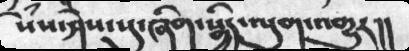སེཾས་ཤེས་སུ་ཞིག་སྒྱིད་ལུགས་འགྱུར།།
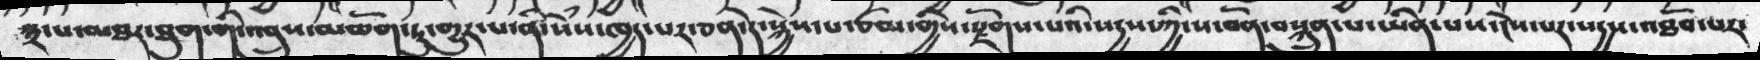༣་པ་མཐར་ཐུག་གི་འབྲུས་མཆོག་ཏུ་གྱུར་པ་ནི་སེཾས་ཁྱད་པར་ཅན་དེ་སྐྱེད་པ་ཙམ་གྱིས་རྫོགས་པའི་སདྱས་ཀྱི་ས་བོན་ནསྐྲུན་པ་ཡིན་པས་ངེས་པར་སདྱས་འཐོབ་པར་
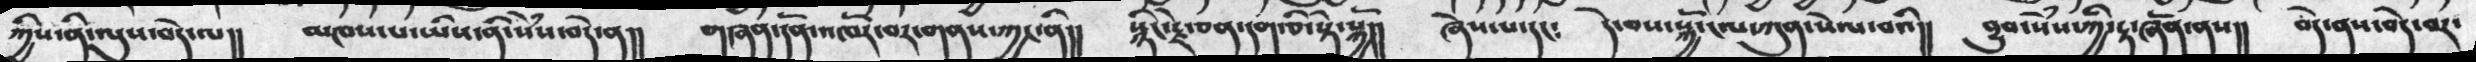ཀྱིས་ནི་ལུས་བདེ་ལ།།  མཁས་པ་ཡིས་ནི་སེཾས་བདེ་ན།།  གཞན་དོན་འཁོར་བར་གནས་ཀྱང་ནི།།   སྙིང་རྗེ་ཅན་དག་ཅི་སྟེ་སྐྱོ།།  ཞེས་པ་དང༴  དེ་བས་སྐྱོ་ངལ་ཀུན་སེལ་བའི།།  བདེ་ནས་བདེ་བར་
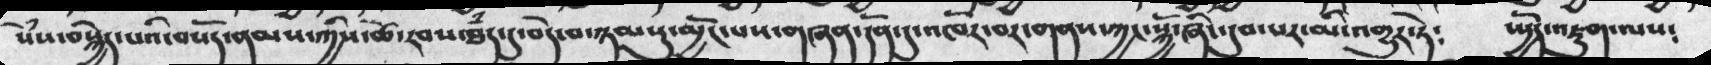སེཾས་བསྐྱེད་པའི་བསོད་ནམས་ཀྱིས་ཚེ་རབས་ཐཾད་དུ་བདེ་བ་ཉམསུ་མྱོང་པས་གཞན་དོན་དུ་འཁོར་བར་གནས་ཀྱང་སྐྱོ་ཞིང་དུབ་པར་མི་འགྱུར་ཏེ༴  སྤྱོད་འཇུག་ལས༴
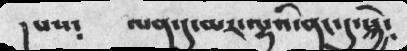།  པས༴  ལན་དུ་མར་ལྷའི་ནང་དུ་སྐྱེ༴
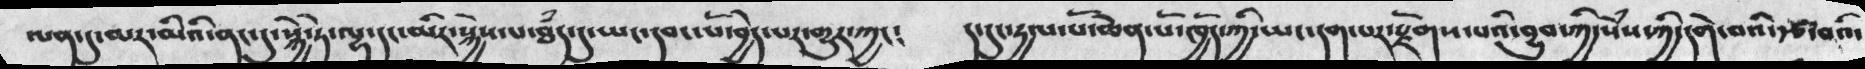ལན་དུ་མར་མིའི་ནང་དུ་སྐྱེ་ཏེ་ལྷ་དང་མིར་སྐྱེས་པ་ཐཾད་དུ་ཡང་དབང་པོ་བྱེད་པར་གྱུར་ཀྱང༴  ད་དུང་དྱལ་པོ་ཆེན་པོ་ཁྱོད་ཀྱི་ཡང་དག་པར་རྫོགས་པའི་བྱུབ་ཀྱི་སེཾས་ཀྱི་དགེ་བའི་རྩ་བའི་
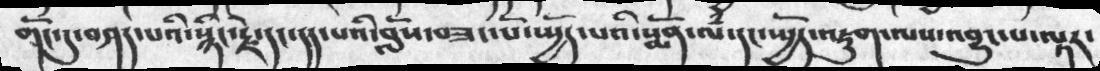གོང་དུ་བཤས་པའི་སྙིང་རྗེ་དང་དད་པའི་བློས་བཟང་པོ་སྤྱོད་པའི་སྨོན་ལཾ་དང་སྤྱོད་འཇུག་ལས་འབྱུང་པ་ལྟར་
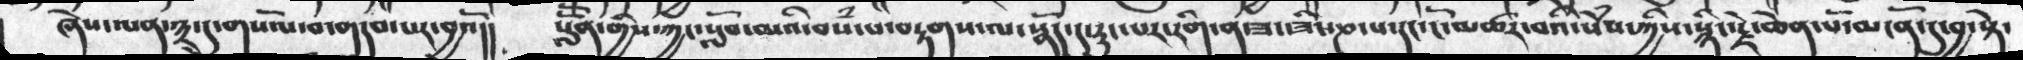ཞེས་ལན་༣་དུ་གསོལ་བ་གདབ་པར་བྱའོ།།  སློོན་གྱིས་ཀྱང་སློབ་མའི་བསཾ་པ་བརྟགས་ལ་སྣོད་དུ་རུང་པར་རིག་ན་ཟང་ཟིང་ཎ་པ་དང་ངོ་མཚར་བའི་སེཾས་ཀྱིས་སྙིང་རྗེ་ཆེན་པོ་མངོན་དུ་བྱ་སྟེ་
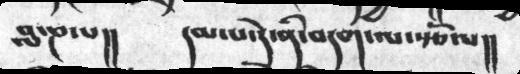བླ་ཎ་པ།།  དམ་པ་དེ་ནི་བདག་ལ་རྩོལ།།
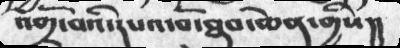འགྲོ་བའི་དཔའ་བོ་ཐུབ་ཆེན་གྱིས།།
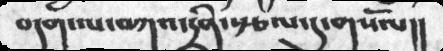བདག་ལ་བཀའ་དྲིན་སྩལ་དུ་གསོལ།།
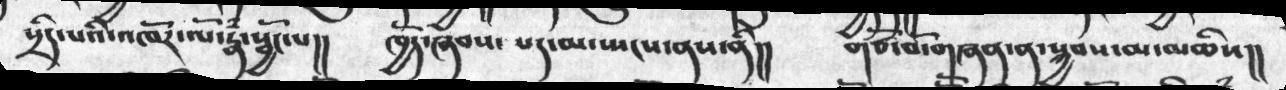སྲིད་པའི་འཁོར་ལོ་རྣཾ་སྦྱོང་པ།།  ཁྱོད་ཞབས་པད་མ་སྤངས་ནས་ནི།།  གཙོ་བོ་གཞན་ན་སྐྱབས་མ་མཆིས།།
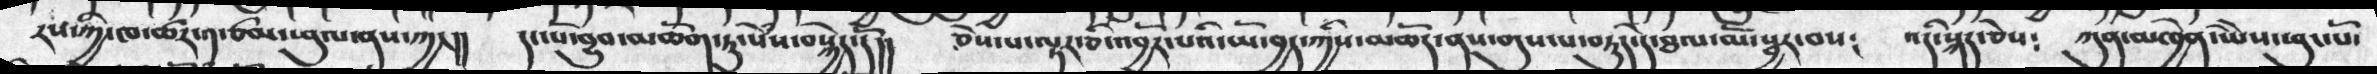རས་ཀྱི་ཁ་ཚར་༡་ཙམ་ཕུལ་ནས་ཀྱང།།  དང་པོ་བྱུབ་མཆོག་ཏུ་སེཾས་བསྐྱེད་དོ།།  ཅེས་པ་ལྟར་ཅི་འབྱོར་པའི་ཡོ་བྱད་ཀྱིས་མཆོད་ནས་གུས་པ་བཏུད་དེ་ཐལ་མོ་སྦྱར་བས༴  འདི་སྐད་ཅེས༴  ཀུན་མཁྱེན་ཡེེས་ཕུང་པོ་
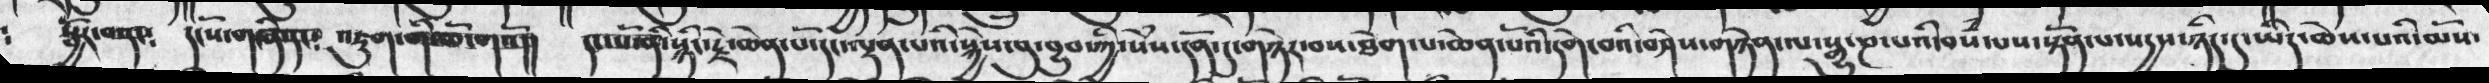སྦྱོར་དང༴  དངོས་གཞི་དང༴  འཇུག་གི་ཆོ་གའོ།།   དང་པོ་ནི་སྙིང་རྗེ་ཆེན་པོ་དང་ལྡན་པའི་སྐྱེས་བུ་བྱུབ་ཀྱི་སེཾས་དོན་དུ་གཉེར་བས་ཐེག་པ་ཆེན་པོའི་དགེ་བའི་བཤེས་གཉེན་ལ་རྒྱུ་ཎ་པའི་བསཾ་པས་སྟོན་པ་སདྱས་ཉིད་དུ་ཡིད་ཆེས་པའི་མོས་
